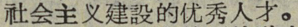社会主义建設的优秀人才。
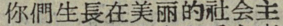你們生長在美丽的社会主
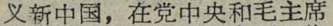义新中国，在党中央和毛主席
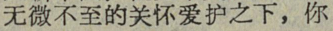无微不至的关怀爱护之下，你
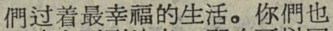們过着最幸福的生活。你們也
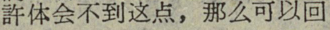許体会不到这点，那么可以回
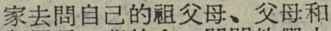家去問自己的祖发母、发母和
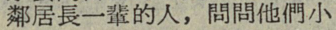鄰居長一輩的人，問問他們小
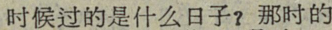时候过的是什么日子？那时的
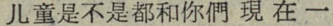儿童是不是都和你們現在一
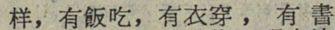样，有飯吃，有衣穿，有書
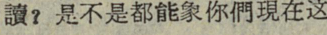讀？是不是都能象你們現在这
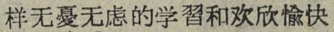样无憂无虑的学習和欢欣愉快
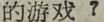的游戏？
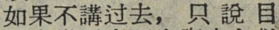如果不講过去，只說目
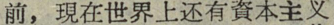前，現在世界上还有資本主义
